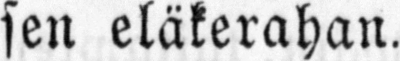sen eläkerahan.
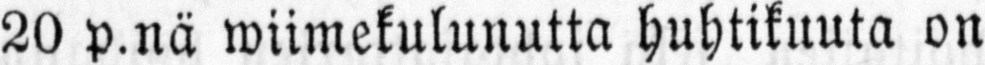20 p.nä wiimekulunutta huhtikuuta on
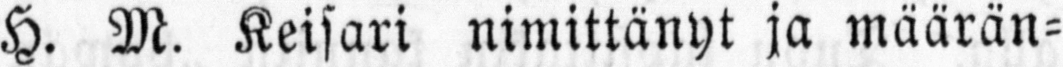H. M. Keisari nimittänyt ja määrän-
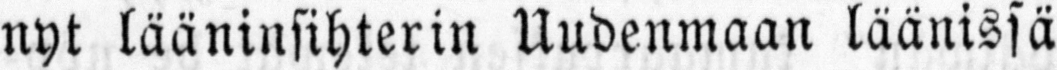nyt lääninsihterin Uudenmaan läänissä
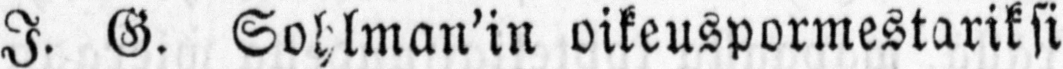I. G. oikeuspormestariksi
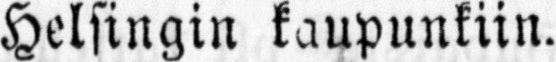Helsingin kaupunkiin.
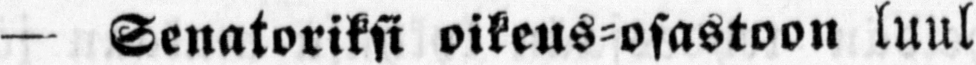— Senatoriksi oikeus-osastoon luul-
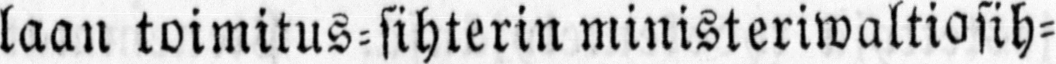laan toimitus-sihterin ministeriwaltiasih-
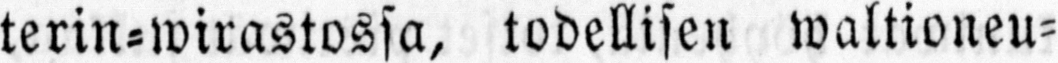terin-wirastossa, todellisen waltioneu-
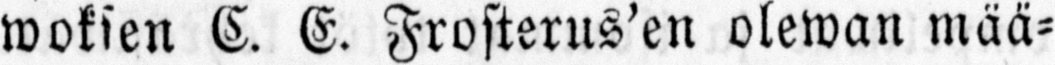woksen C. E. Frosterus'en olewan mää-
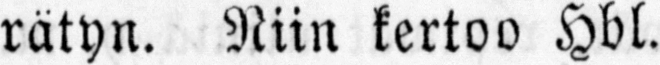rätyn. Niin kertoo Hbl.
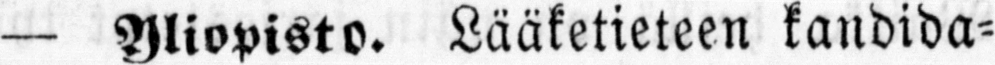— Yliopisto. Lääketieteen kandida-
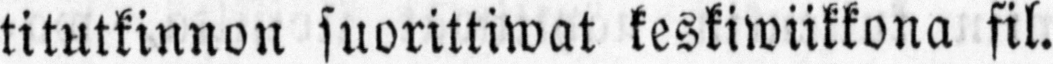titutkinnon suorittiwat keskiwiikkona fil.
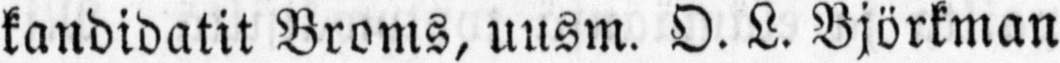kandidatit Broms, uusm. O. L. Björkman
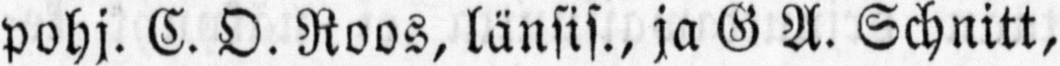pohj. C. O. Roos, länsis., ja G A. Schnitt,
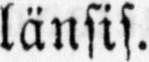länsis.
